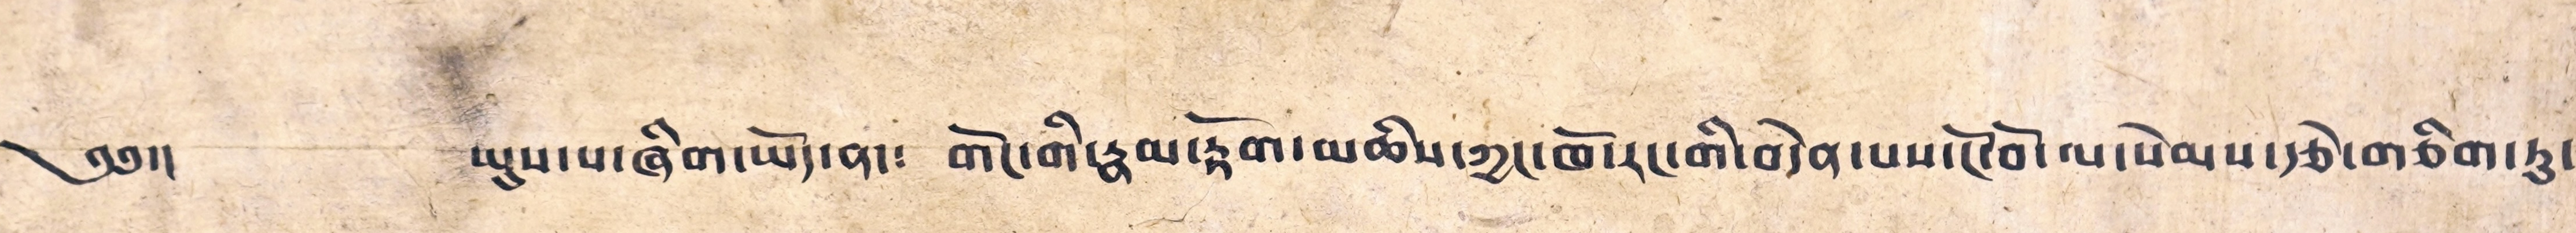༄༅།།  ཡུས་པ་ཞིག་ཡོད་ན་༴ གོང་གི་རྣམ་རྟོག་མཆིས་ཀྱང་ཁོ་རང་གི་བདེན་པས་ངོ་བོ་ལ་སེམས་རྩེ་གཅིག་ཏུ་
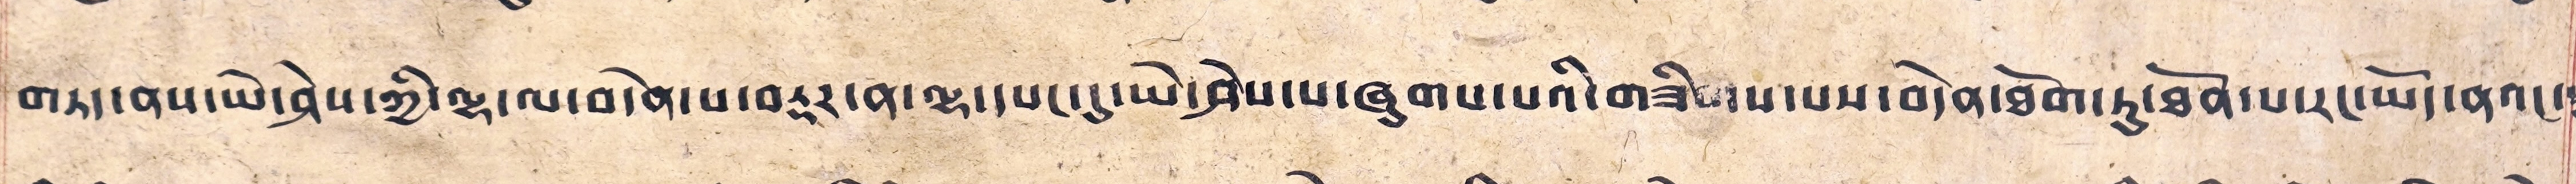གཏད་ནས་ཡེ་ཤེས་ཀྱི་ལྷ་ལ་བདེན་པ་བརྡར་ན་ལྷ་དཔང་དུ་ཡེ་ཤེས་པ་ཞུགས་པའི་གཟིགས་པས་བདེན་ཐོག་ཏུ་ཐོན་པ་རང་ཡོད་ནའང་༴
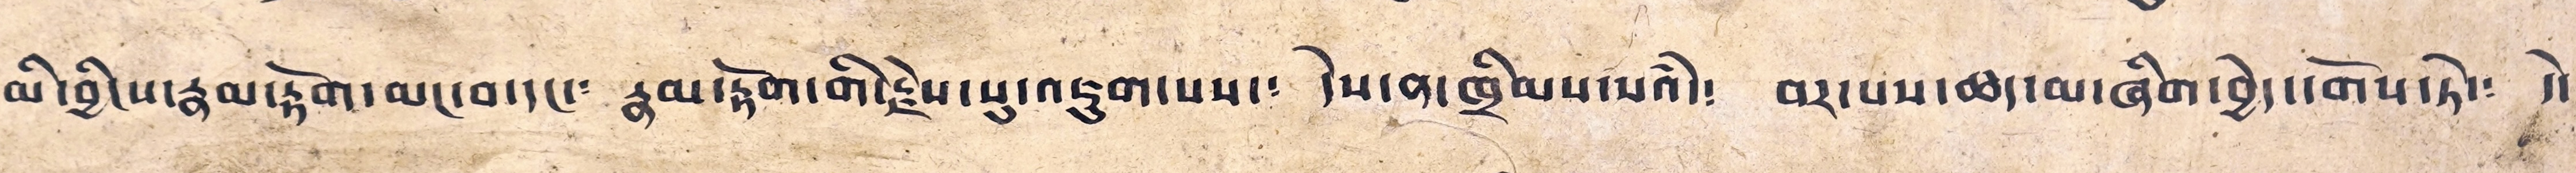མི་བྱིངས་རྣམ་རྟོག་མང་བ་དང་༴ རྣམ་རྟོག་གི་རྗེས་སུ་འཇུག་པས་༴ དེས་ན་ཁྲིམས་པའཾ་༴ བར་པས་ཚད་མ་ཞིག་བྱེད་དགོས་ཏེ་
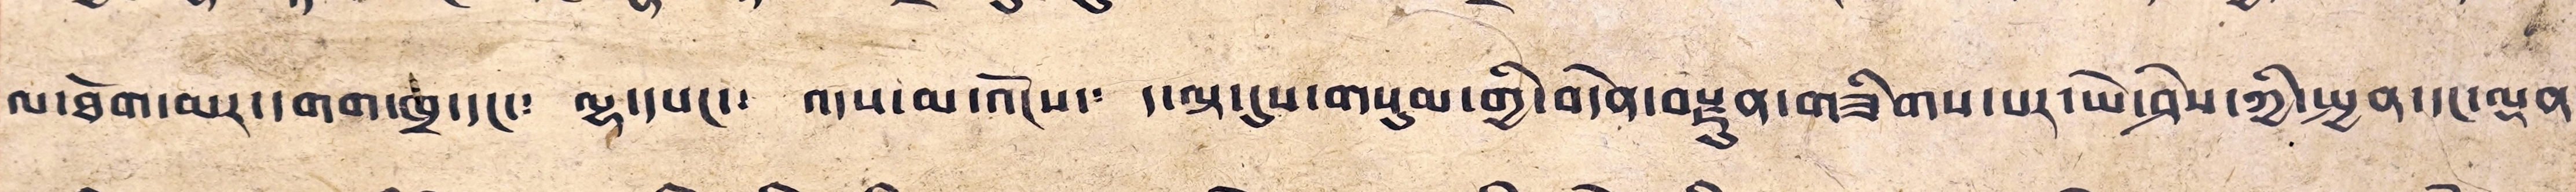ལ་ཐོག་མར་དགག་ཁྲ་དང་༴ ལྷ་དཔང་༴ འདས་མ་འོངས་༴ ད་ལྟ་དུས་གསུམ་གྱི་བདེན་བརྫུན་གཟིགས་པར་ཡེ་ཤེས་ཀྱི་སྤྱན་དང་ལྡན་
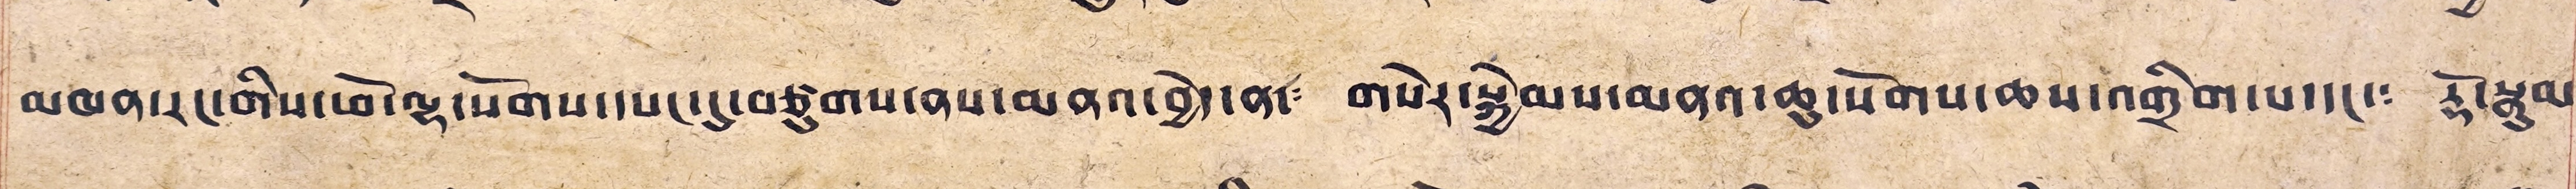མཁན་རང་གིས་ཕོ་ལྷ་སོགས་དཔང་དུ་བཙུགས་ནས་མནའ་བྱེད་ན་༴ གསེར་སྐྱེམས་མནའ་ཆུ་སོགས་ཆས་འགྲིག་པ་དང་༴ རྡོ་སྣུམ༴
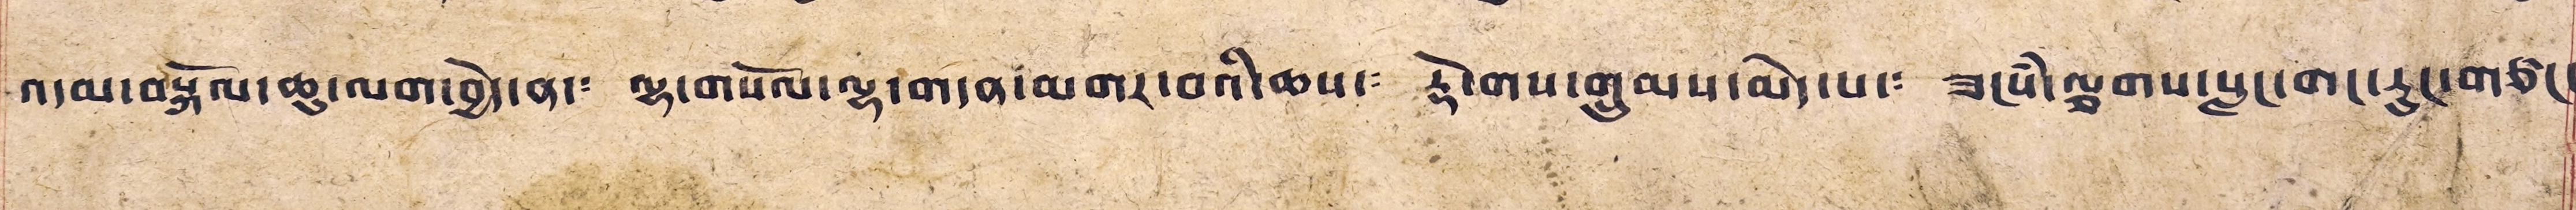འདམ་བསྐོལ་ཆུ་ལག་བྱེད་ན་༴ ལྷ་གསོལ་ལྷ་གདན་མགར་བའི་ཆས་༴ རྡོ་གས་གྲུམས་མེད་པ་༴ ཟངསཾ་ལྕགས་སླང་གང་རུང་གཙང་
